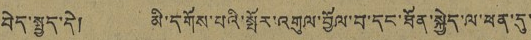བྱེད་སྤྱད་དེ། མི་དགོས་པའི་སྤོར་འགུལ་བྱོལ་བ་དང་ཐོན་སྐྱེད་ལ་ཕན་དུ་་
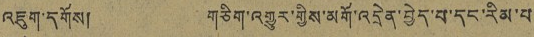འཇུག་དགོས། གཅིག་འགྱུར་གྱིས་མགོ་འདྲེན་བྱེད་པ་དང་རིམ་པ་
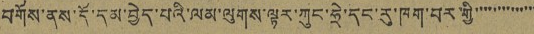བགོས་ནས་དོ་དམ་བྱེད་པའི་ལམ་ལུགས་ལྟར་ཀུང་ཧྲེ་དང་རུ་ཁག་བར་གྱི་་་་་་་་་་་་་་
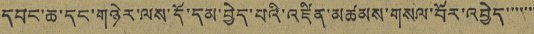དབང་ཆ་དང་གཉེར་ལས་དོ་དམ་བྱེད་པའི་འཛིན་མཚམས་གསལ་བོར་འབྱེད་་་་་་་
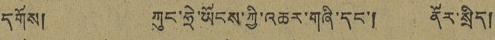དགོས། ཀུང་ཧྲེ་ཡོངས་ཀྱི་འཆར་གཞི་དང་། ནོར་སྲིད།
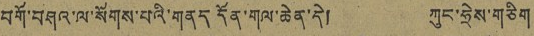བགོ་བཤའ་ལ་སོགས་པའི་གནད དོན་གལ་ཆེན་དེ། ཀུང་ཧྲེས་གཅིག
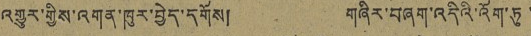འགྱུར་གྱིས་འགན་ཁུར་བྱེད་དགོས། གཞིར་བཞག་འདིའི་འོག་ཏུ་
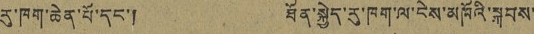རུ་ཁག་ཆེན་པོ་དང་། ཐོན་སྐྱེད་རུ་ཁག་ལ་ངེས་མཁོའི་སྐབས་
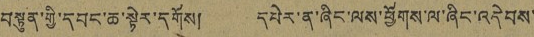བསྟུན་གྱི་དབང་ཆ་སྟེར་དགོས། དཔེར་ན་ཞིང་ལས་ཕྱོགས་ལ་ཞིང་འདེབས་
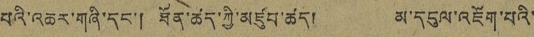བའི་འཆར་གཞི་དང་། ཐོན་ཚད་ཀྱི་མཛུབ་ཚད། མ་དངུལ་འཇོག་པའི་
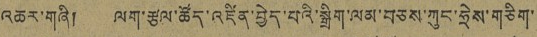འཆར་གཞི། ལག་རྩལ་ཚོད་འཛིན་བྱེད་པའི་སྒྲིག་ལམ་བཅས་ཀུང་ཧྲེས་གཅིག་
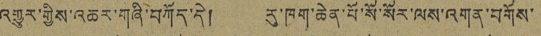འགྱུར་གྱིས་འཆར་གཞི་བཀོད་དེ། རུ་ཁག་ཆེན་པོ་སོ་སོར་ལས་འགན་བགོས་
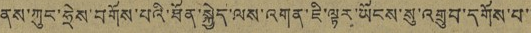ནས་ཀུང་ཧྲེས་བགོས་པའི་ཐོན་སྐྱེད་ལས་འགན་ཇི་ལྟར་ཡོངས་སུ་འགྲུབ་དགོས་པ་་
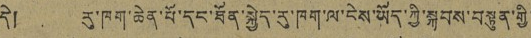དེ། རུ་ཁག་ཆེན་པོ་དང་ཐོན་སྐྱེད་རུ་ཁག་ལ་ངེས་ཡོད་ཀྱི་སྐབས་བསྟུན་གྱི་
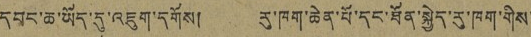དབང་ཆ་ཡོད་དུ་འཇུག་དགོས། རུ་ཁག་ཆེན་པོ་དང་ཐོན་སྐྱེད་རུ་ཁག་གིས་
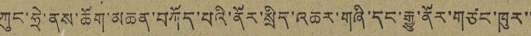ཀུང་ཧྲེ་ནས་ཆོག་མཆན་བཀོད་པའི་ནོར་སྲིད་འཆར་གཞི་དང་རྒྱུ་ནོར་གཙང་ཁུར་་
